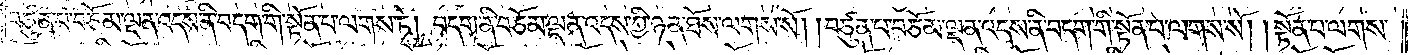བཙུན་པ་བཅོམ་ལྡན་འདས་ནི་བདག་གི་སྟོན་པ་ལགས་ཏེ། བདག་ནི་བཅོམ་ལྡན་འདས་ཀྱི་ཉན་ཐོས་ལགས་སོ། །བཙུན་པ་བཅོམ་ལྡན་འདས་ནི་བདག་གི་སྟོན་པ་ལགས་སོ། །སྟོན་པ་ལགས་
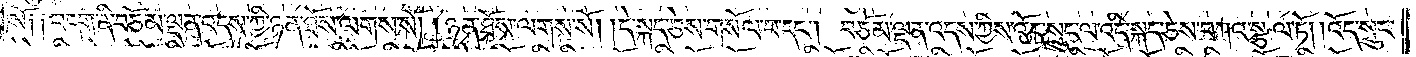སོ༑ ༑བདག་ནི་བཅོམ་ལྡན་འདས་ཀྱི་ཉན་ཐོས་ལགས་སོ། །ཉན་ཐོས་ལགས་སོ། །དེ་སྐད་ཅེས་གསོལ་པ་དང༌། བཅོམ་ལྡན་འདས་ཀྱིས་འོད་སྲུང་ལ་འདི་སྐད་ཅེས་བཀའ་སྩལ་ཏོ། །འོད་སྲུང་
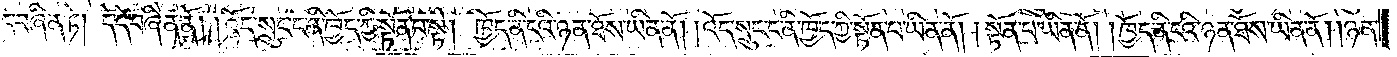དེ་དེ་བཞིན་ཏེ། དེ་དེ་བཞིན་ནོ། །འོད་སྲུང་ང་ནི་ཁྱོད་ཀྱི་སྟོན་པ་སྟེ། ཁྱོད་ནི་ངའི་ཉན་ཐོས་ཡིན་ནོ། །འོད་སྲུང་ང་ནི་ཁྱོད་ཀྱི་སྟོན་པ་ཡིན་ནོ། །སྟོན་པ་ཡིན་ནོ། །ཁྱོད་ནི་ངའི་ཉན་ཐོས་ཡིན་ནོ། །ཉན་
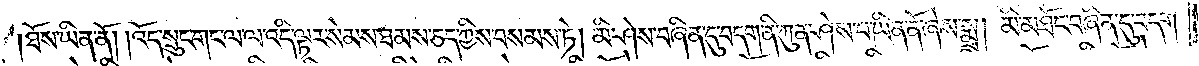ཐོས་ཡིན་ནོ། །འོད་སྲུང་གང་ལ་ལ་འདི་ལྟར་སེམས་ཐམས་ཅད་ཀྱིས་བསམས་ཏེ། མི་ཤེས་བཞིན་དུ་བདག་ནི་ཀུན་ཤེས་པ་ཡིན་ནོ་ཞེས་སྨྲ། མི་མཐོང་བཞིན་དུ་བདག་
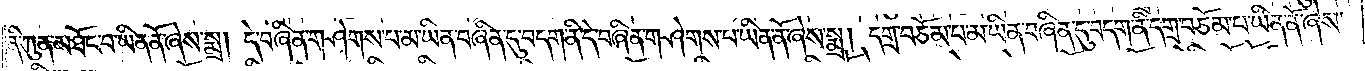ནི་ཀུན་མཐོང་བ་ཡིན་ནོ་ཞེས་སྨྲ། དེ་བཞིན་གཤེགས་པ་མ་ཡིན་བཞིན་དུ་བདག་ནི་དེ་བཞིན་གཤེགས་པ་ཡིན་ནོ་ཞེས་སྨྲ། དགྲ་བཅོམ་པ་མ་ཡིན་བཞིན་དུ་བདག་ནི་དགྲ་བཅོམ་པ་ཡིན་ནོ་ཞེས་
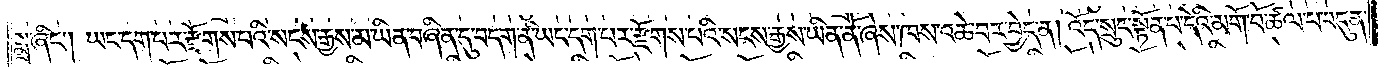སྨྲ་ཞིང༌། ཡང་དག་པར་རྫོགས་པའི་སངས་རྒྱས་མ་ཡིན་བཞིན་དུ་བདག་ནི་ཡང་དག་པར་རྫོགས་པའི་སངས་རྒྱས་ཡིན་ནོ་ཞེས་ཁས་འཆེ་བར་བྱེད་ན། འོད་སྲུང་སྟོན་པ་དེའི་མགོ་བོ་ཚལ་པ་བདུན་
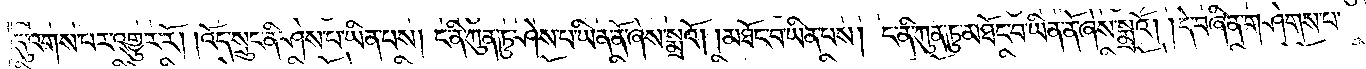དུ་འགས་པར་འགྱུར་རོ། །འདོད་སྲུང་ནི་ཤེས་པ་ཡིན་པས། ང་ནི་ཀུན་ཏུ་ཤེས་པ་ཡིན་ནོ་ཞེས་སྨྲའོ། །མཐོང་བ་ཡིན་པས། ང་ནི་ཀུན་ཏུ་མཐོང་བ་ཡིན་ནོ་ཞེས་སྨྲའོ། །དེ་བཞིན་གཤེགས་པ་
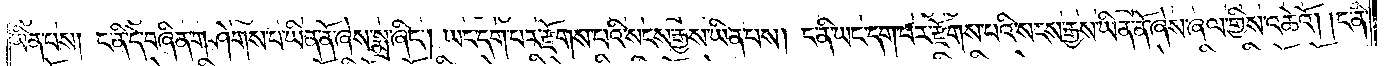ཡིན་པས། ང་ནི་དེ་བཞིན་གཤེགས་པ་ཡིན་ནོ་ཞེས་སྨྲ་ཞིང༌། ཡང་དག་པར་རྫོགས་པའི་སངས་རྒྱས་ཡིན་པས། ང་ནི་ཡང་དག་པར་རྫོགས་པའི་སངས་རྒྱས་ཡིན་ནོ་ཞེས་ཞལ་གྱིས་འཆེའོ། །ང་ནི་
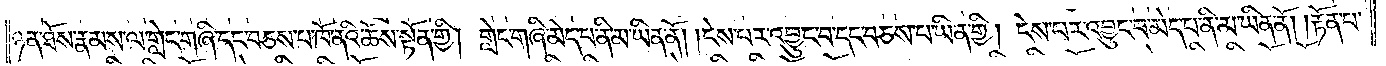ཉན་ཐོས་རྣམས་ལ་གླེང་གཞི་དང་བཅས་པ་ཁོ་ནའི་ཆོས་སྟོན་གྱི། གླེང་གཞི་མེད་པ་ནི་མ་ཡིན་ནོ། །ངེས་པར་འབྱུང་བ་དང་བཅས་པ་ཡིན་གྱི། ངེས་པར་འབྱུང་བ་མེད་པ་ནི་མ་ཡིན་ནོ། །རྟོན་པ་
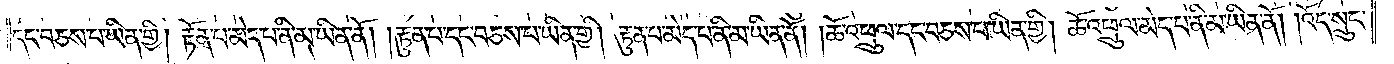དང་བཅས་པ་ཡིན་གྱི། རྟོན་པ་མེད་པ་ནི་མ་ཡིན་ནོ། །རྟུན་པ་དང་བཅས་པ་ཡིན་གྱི། རྟུན་པ་མེད་པ་ནི་མ་ཡིན་ནོ། །ཆོ་འཕྲུལ་དང་བཅས་པ་ཡིན་གྱི། ཆོ་འཕྲུལ་མེད་པ་ནི་མ་ཡིན་ནོ། །འོད་སྲུང་
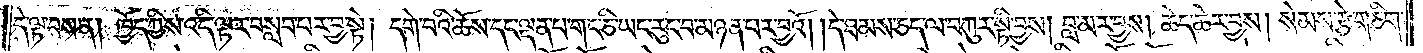དེ་ལྟ་བས་ན། ཁྱོད་ཀྱིས་འདི་ལྟར་བསླབ་པར་བྱ་སྟེ། དགེ་བའི་ཆོས་དང་ལྡན་པ་གང་ཅི་ཡང་རུང་བ་མཉན་པར་བྱའོ། །དེ་ཐམས་ཅད་ལ་བཀུར་སྟི་བྱས། བླ་མར་བྱས། ཆེད་ཆེར་བྱས། སེམས་རྩེ་གཅིག་
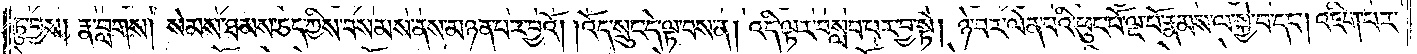ཏུ་བྱས། རྣ་བླགས། སེམས་ཐམས་ཅད་ཀྱིས་བསམས་ནས་མཉན་པར་བྱའོ། །འོད་སྲུང་དེ་ལྟ་བས་ན། འདི་ལྟར་བསླབ་པར་བྱ་སྟེ། ཉེ་བར་ལེན་པའི་ཕུང་པོ་ལྔ་པོ་རྣམས་ལ་སྐྱེ་བ་དང༌། འཇིག་པར་
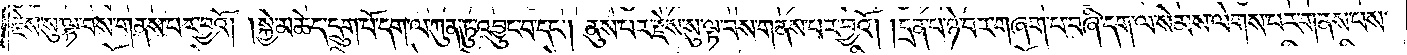རྗེས་སུ་ལྟ་བས་གནས་པར་བྱའོ། །སྐྱེ་མཆེད་དྲུག་པོ་དག་ལ་ཀུན་ཏུ་འབྱུང་བ་དང༌། ནུས་པར་རྗེས་སུ་ལྟ་བས་གནས་པར་བྱའོ། །དྲན་པ་ཉེ་བར་གཞག་པ་བཞི་དག་ལ་སེམས་ལེགས་པར་གནས་པས་
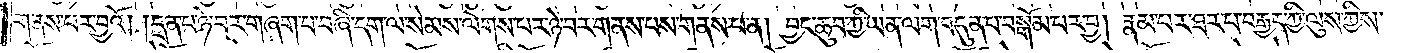གནས་པར་བྱའོ། །དྲན་པ་ཉེ་བར་གཞག་པ་བཞི་དག་ལ་སེམས་ལེགས་པར་ཉེ་བར་གནས་པས་གནས་པ་ན། བྱང་ཆུབ་ཀྱི་ཡན་ལག་བདུན་པ་བསྒོམ་པར་བྱ། རྣམ་པར་ཐར་པ་བརྒྱད་ཀྱི་ལུས་ཀྱིས་
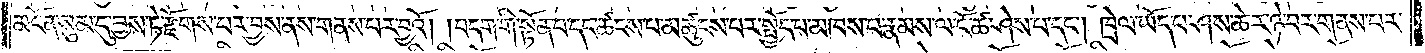མངོན་སུམ་དུ་བྱས་ཏེ་རྫོགས་པར་བྱས་ནས་གནས་པར་བྱའོ། །བདག་གི་སྟོན་པ་དང་ཚངས་པ་མཚུངས་པར་སྤྱོད་པ་མཁས་པ་རྣམས་ལ་ངོ་ཚ་ཤེས་པ་དང༌། ཁྲེལ་ཡོད་པ་ཤས་ཆེར་ཉེ་བར་གནས་པར་
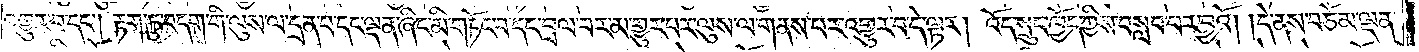འགྱུར་བ་དང༌། རྟག་ཏུ་བདག་གི་ལུས་ལ་དྲན་པ་དང་ལྡན་ཞིང་མི་གཏོང་བ་དང་བྲལ་བར་མ་གྱུར་པར་ལུས་ལ་གནས་པར་འགྱུར་བ་དེ་ལྟར། འོད་སྲུང་ཁྱོད་ཀྱིས་བསླབ་པར་བྱའོ། །དེ་ནས་བཅོམ་ལྡན་
